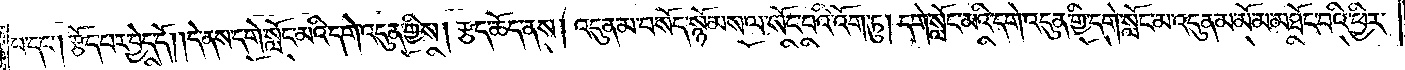པ་དང༌། རྩོད་པར་བྱེད་དོ། །དེ་ནས་དགེ་སློང་མའི་དགེ་འདུན་གྱིས། རྩད་ཆོད་ནས། འདུན་མ་བསོད་སྙོམས་ལ་སོང་བའི་འོག་ཏུ། དགེ་སློང་མའི་དགེ་འདུན་གྱི་དགེ་སློང་མ་འདུན་མ་མོ་མ་མཐོང་བའི་ཕྱིར་
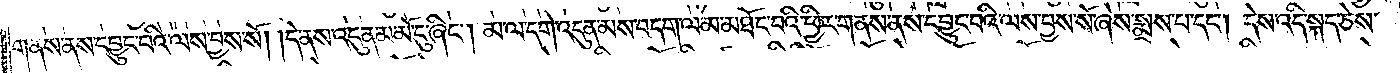གནས་ནས་དབྱུང་བའི་ལས་བྱས་སོ། །དེ་ནས་འདུན་མ་མོ་ངུ་ཞིང༌། མ་ལ་དགེ་འདུན་མས་བདག་ལ་མ་མཐོང་བའི་ཕྱིར་གནས་ནས་དབྱུང་བའི་ལས་བྱས་སོ་ཞེས་སྨྲས་པ་དང༌། དེས་འདི་སྐད་ཅེས་
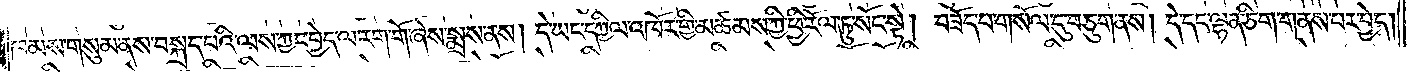ཁམས་གསུམ་ནས་བསྐྲད་པའི་ལས་ཀྱང་བྱེད་ལ་རག་གོ་ཞེས་སྨྲས་ནས། དེ་ཡང་དཀྱིལ་འཁོར་གྱི་མཚམས་ཀྱི་ཕྱི་རོལ་ཏུ་སོང་སྟེ། བཟོད་གསོལ་དུ་བཅུག་ནས། དེ་དང་ལྷན་ཅིག་གནས་པར་བྱེད་
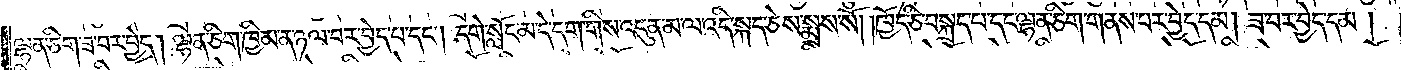ལྷན་ཅིག་ཟ་བར་བྱེད། ལྷན་ཅིག་ཁྱིམ་ན་ཉལ་བར་བྱེད་པ་དང༌། དགེ་སློང་མ་དེ་དག་གིས་འདུན་མ་ལ་འདི་སྐད་ཅེས་སྨྲས་སོ། །ཁྱོད་ཅི་བསྐྲད་པ་དང་ལྷན་ཅིག་གནས་པར་བྱེད་དམ། ཟ་བར་བྱེད་དམ།
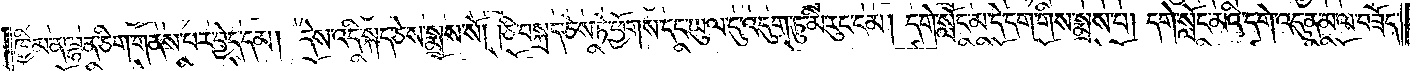ཁྱིམ་ན་ལྷན་ཅིག་གནས་པར་བྱེད་དམ། དེས་འདི་སྐད་ཅེས་སྨྲས་སོ། །ཅི་བསྐྲད་ཅེས་ཏེ་ཕྱོགས་དང་ཡུལ་དུ་འདུག་ཏུ་མི་རུང་ངམ། དགེ་སློང་མ་དེ་དག་གིས་སྨྲས་པ། དགེ་སློང་མའི་དགེ་འདུན་མ་ལ་བཟོད་
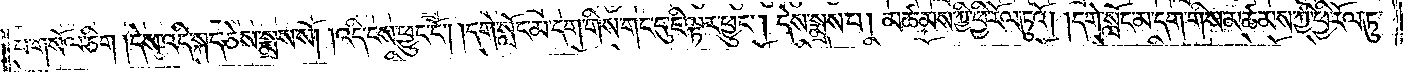པ་གསོལ་ཅིག །དེས་འདི་སྐད་ཅེས་སྨྲས་སོ། །འདི་ངས་ཕྱུང་ངོ༌། །དགེ་སློང་མ་དག་གིས་གང་དུ་ཇི་ལྟར་ཕྱུང༌། དེས་སྨྲས་པ། མཚམས་ཀྱི་ཕྱི་རོལ་ཏུའོ། །དགེ་སློང་མ་དག་གིས་མཚམས་ཀྱི་ཕྱི་རོལ་ཏུ་
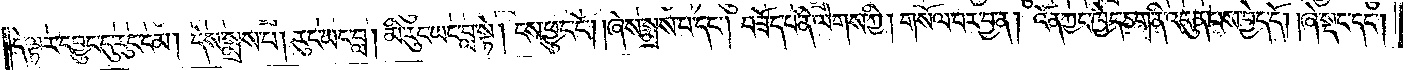དེ་ལྟར་དབྱུང་དུ་རུང་ངམ། དེས་སྨྲས་པ། རུང་ཡང་བླ། མི་རུང་ཡང་བླ་སྟེ། ངས་ཕྱུང་ངོ༌། །ཞེས་སྨྲས་པ་དང༌། བཟོད་པ་ནི་ལེགས་ཀྱི། གསོལ་བར་བྱ་ན། འོན་ཀྱང་ཁྱེད་ཅག་ནི་འདུན་པས་བྱེད་དོ། །ཞེ་སྡང་དང༌།
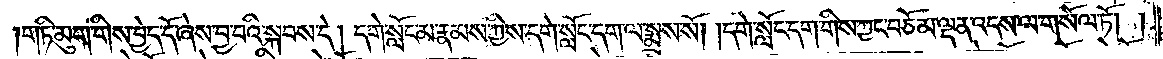གཏི་མུག་གིས་བྱེད་དོ་ཞེས་བྱ་བའི་སྐབས་དེ། དགེ་སློང་མ་རྣམས་ཀྱིས་དགེ་སློང་དག་ལ་སྨྲས་སོ། །དགེ་སློང་དག་གིས་ཀྱང་བཅོམ་ལྡན་འདས་ལ་གསོལ་ཏོ། །
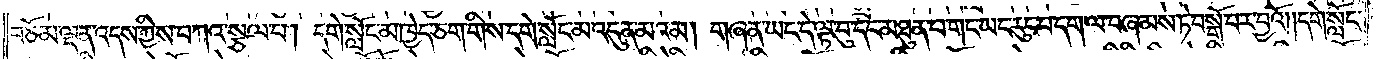བཅོམ་ལྡན་འདས་ཀྱིས་བཀའ་སྩལ་པ། དགེ་སློང་མ་ཁྱེད་ཅག་གིས་དགེ་སློང་མ་འདུན་མའམ། གཞན་ཡང་དེ་ལྟ་བུ་དང་མཐུན་པ་གང་ཡང་རུང་བ་དག་ལ་བཞམས་ཏེ་བསྒོ་བར་བྱའོ། །དགེ་སློང་
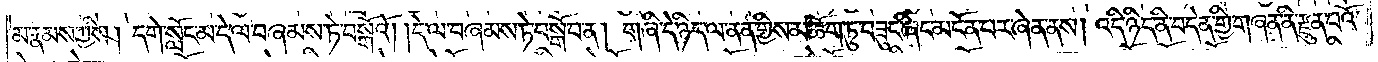མ་རྣམས་ཀྱིས། དགེ་སློང་མ་དེ་ལ་བཞམས་ཏེ་བསྒོའོ། །དེ་ལ་བཞམས་ཏེ་བསྒོ་བ་ན། གཞི་དེ་ཉིད་ལ་ནན་གྱིས་མཆོག་ཏུ་བཟུང་ཞིང་མངོན་པར་ཞེན་ནས། འདི་ཉིད་ནི་བདེན་གྱི་གཞན་ནི་རྫུན་པའོ་
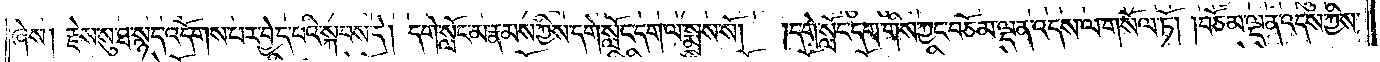ཞེས། རྗེས་སུ་ཐ་སྙད་འདོགས་པར་བྱེད་པའི་སྐབས་དེ། དགེ་སློང་མ་རྣམས་ཀྱིས་དགེ་སློང་དག་ལ་སྨྲས་སོ། །དགེ་སློང་དག་གིས་ཀྱང་བཅོམ་ལྡན་འདས་ལ་གསོལ་ཏོ། །བཅོམ་ལྡན་འདས་ཀྱིས་
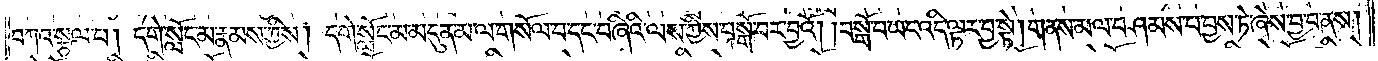བཀའ་སྩལ་པ། དགེ་སློང་མ་རྣམས་ཀྱིས། དགེ་སློང་མ་མདུན་མ་ལ་གསོལ་བ་དང་བཞིའི་ལས་ཀྱིས་བསྒོ་བར་བྱའོ། །བསྒོ་བ་ཡང་འདི་ལྟར་བྱ་སྟེ། གནས་མལ་བཤམས་པ་བྱས་ཏེ་ཞེས་བྱ་བ་ནས།
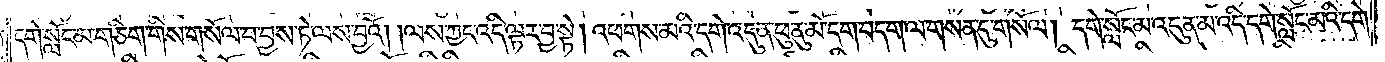དགེ་སློང་མ་གཅིག་གིས་གསོལ་བ་བྱས་ཏེ་ལས་བྱའོ། །ལས་ཀྱང་འདི་ལྟར་བྱ་སྟེ། འཕགས་མའི་དགེ་འདུན་ཕུ་ནུ་མོ་དག་བདག་ལ་གསན་དུ་གསོལ། དགེ་སློང་མ་འདུན་མ་འདི་དགེ་སློང་མའི་དགེ་
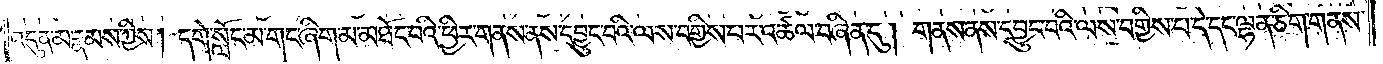འདུན་མ་རྣམས་ཀྱིས། དགེ་སློང་མ་གང་ཞིག་མ་མཐོང་བའི་ཕྱིར་གནས་ནས་དབྱུང་བའི་ལས་བགྱིས་པར་འཚལ་བཞིན་དུ། གནས་ནས་དབྱུང་བའི་ལས་བགྱིས་པ་དེ་དང་ལྷན་ཅིག་གནས་
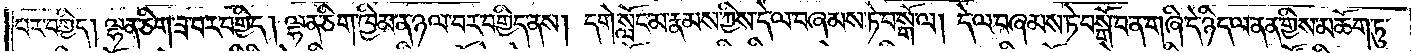པར་བགྱིད། ལྷན་ཅིག་ཟ་བར་བགྱིད། ལྷན་ཅིག་ཁྱིམ་ན་ཉལ་བར་བགྱིད་ནས། དགེ་སློང་མ་རྣམས་ཀྱིས་དེ་ལ་བཞམས་ཏེ་བསྒོ་ལ། དེ་ལ་བཞམས་ཏེ་བསྒོ་བ་ན་གཞི་དེ་ཉིད་ལ་ནན་གྱིས་མཆོག་ཏུ་
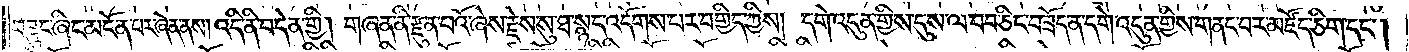བཟུང་ཞིང་མངོན་པར་ཞེན་ནས། འདི་ནི་བདེན་གྱི། གཞན་ནི་རྫུན་པའོ་ཞེས་རྗེས་སུ་ཐ་སྙད་འདོགས་པར་བགྱིད་ཀྱིས། དགེ་འདུན་གྱིས་དུས་ལ་བབ་ཅིང་བཟོད་ན་དགེ་འདུན་གྱིས་གནང་བར་མཛོད་ཅིག་དང༌།
